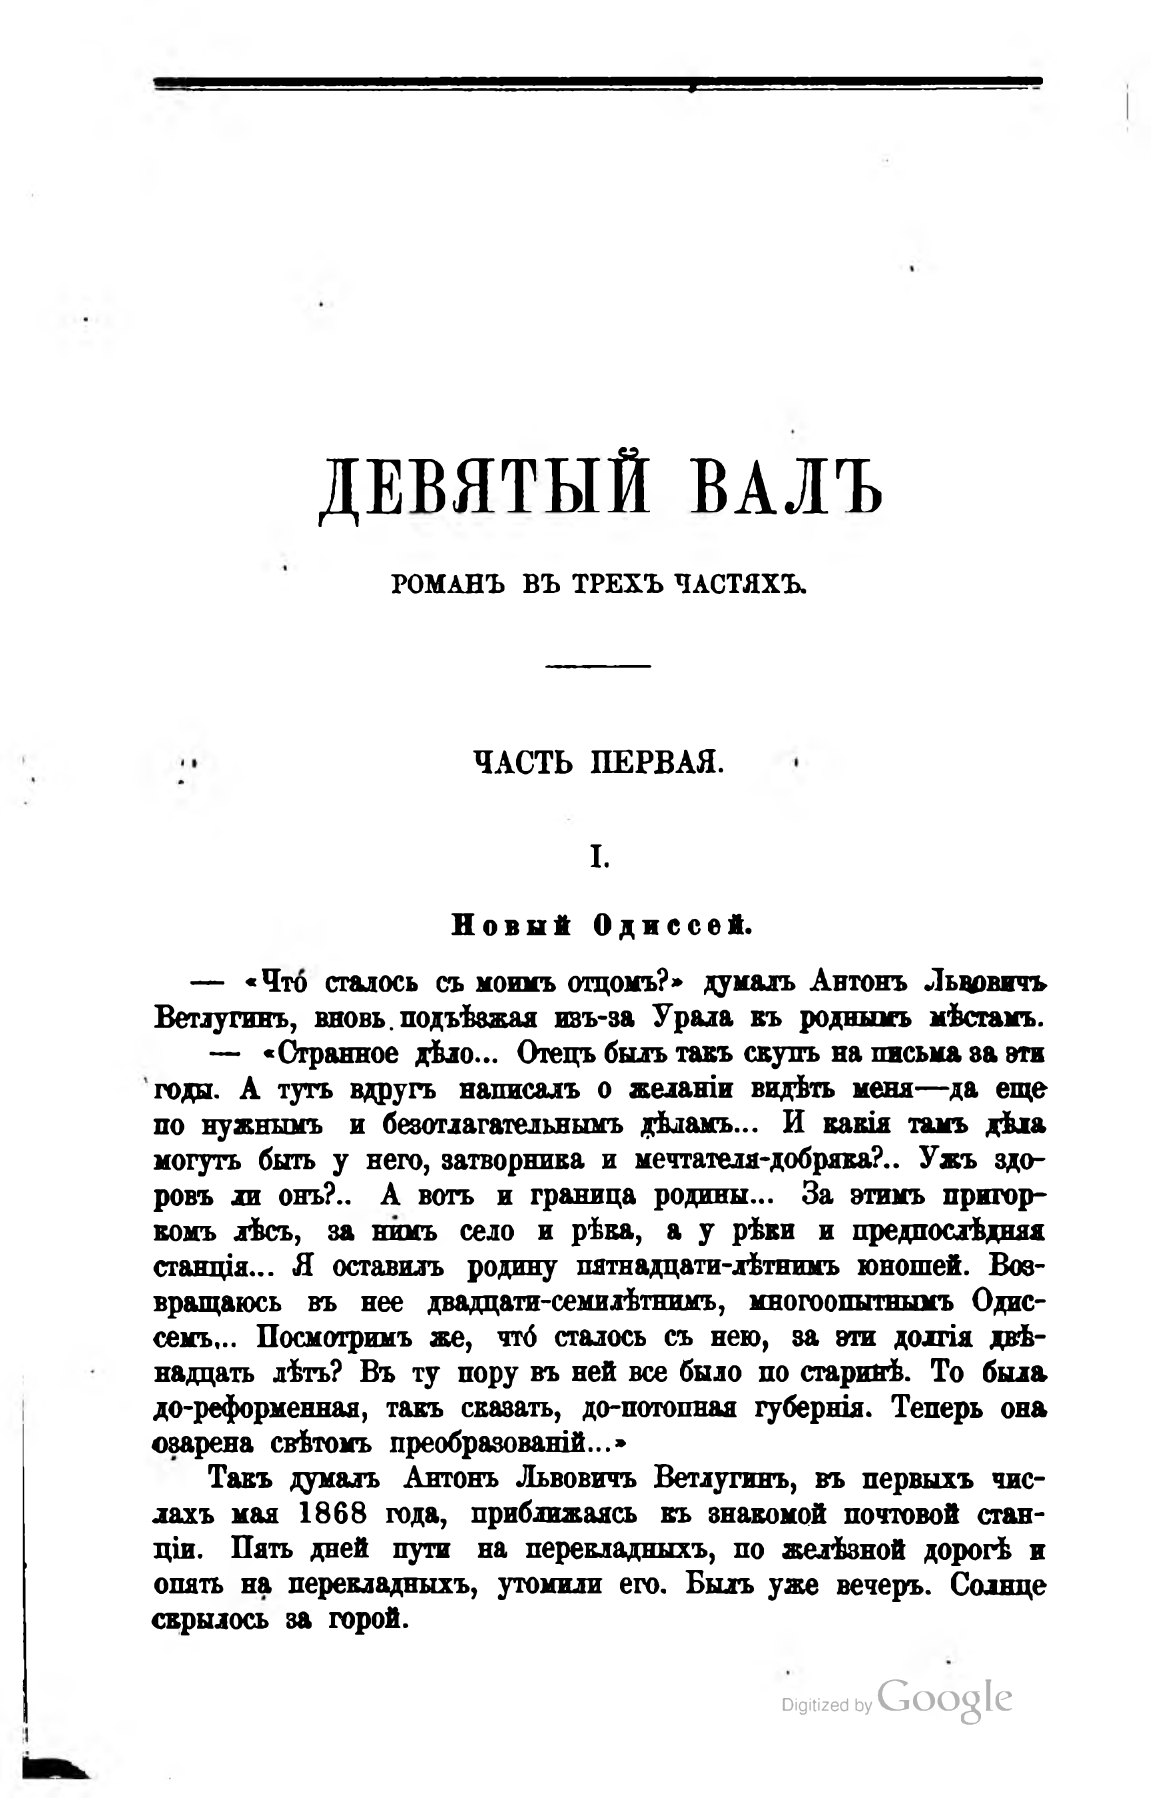ДЕВЯТЫЙ ВАЛЪ
РОМАНЪ ВЪ ТРЕХЪ ЧАСТЯХЪ.
ЧАСТЬ ПЕРВАЯ.
I.
Новый Одиссей.
— «Что сталось съ моимъ отцомъ?» думалъ Антонъ Львовичъ Ветлугинъ, вновь, подъѣзжая изъ-за Урала къ роднымъ мѣстамъ.
— «Странное дѣло... Отецъ былъ такъ скупъ на письма за эти годы. А тутъ вдругъ написалъ о желаніи видѣть меня — да еще по нужнымъ и безотлагательнымъ дѣламъ... И какія тамъ дѣла могутъ быть у него, затворника и мечтателя-добряка?.. Ужъ здоровъ ли онъ?.. А вотъ и граница родины... За этимъ пригоркомъ лѣсъ, за нимъ село и рѣка, а у рѣки и предпослѣдняя станція... Я оставилъ родину пятнадцати-лѣтнимъ юношей. Возвращаюсь въ нее двадцати-семилѣтнимъ, многоопытнымъ Одиссемъ,.. Посмотримъ же, что сталось съ нею, за эти долгія двѣнадцать лѣтъ? Въ ту пору въ ней все было по старинѣ. То была до-реформенная, такъ сказать, до-потопная губернія. Теперь она озарена свѣтомъ преобразованій...»
Такъ думалъ Антонъ Львовичъ Ветлугинъ, въ первыхъ числахъ мая 1868 года, приближаясь къ знакомой почтовой станціи. Пять дней пути на перекладныхъ, по желѣзной дорогѣ и опять на перекладныхъ, утомили его. Былъ уже вечеръ. Солнце скрылось за горой.
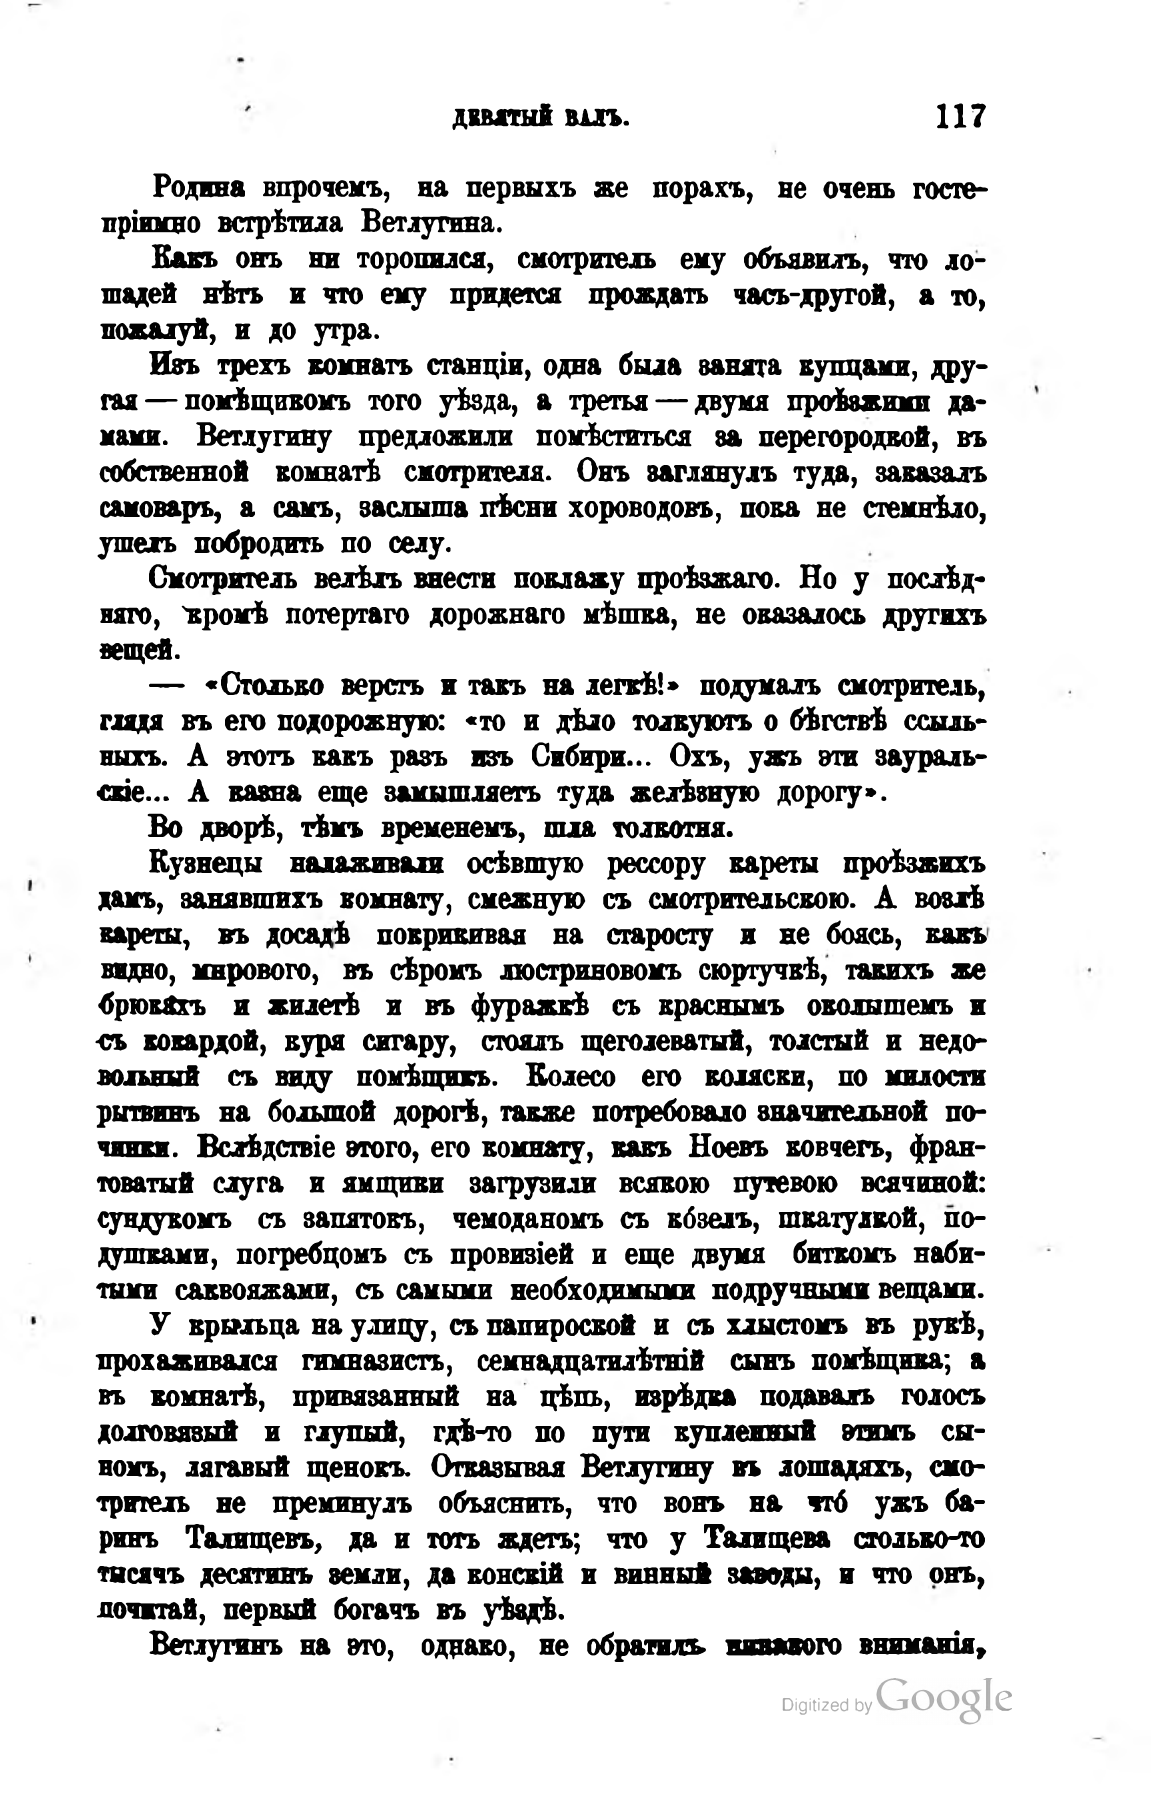ДЕВЯТЫЙ ВАЛЪ.                      117
Родина впрочемъ, на первыхъ же порахъ, не очень гостепріимно встрѣтила Ветлугина.
Какъ онъ ни торопился, смотритель ему объявилъ, что лошадей нѣть и что ему придется прождать часъ-другой, а то, пожалуй, и до утра.
Изъ трехъ комнатъ станціи, одна была занята купцами, другая — помѣщикомъ того уѣзда, а третья — двумя проѣзжими дамами. Ветлугину предложили помѣститься за перегородкой, въ собственной комнатѣ смотрителя. Онъ заглянулъ туда, заказалъ самоваръ, а самъ, заслыша пѣсни хороводовъ, пока не стемнѣло, ушелъ побродить по селу.
Смотритель велѣлъ внести поклажу проѣзжаго. Но у послѣдняго, кромѣ потертаго дорожнаго мѣшка, не оказалось другихъ вещей.
— «Столько верстъ и такъ на легкѣ!» подумалъ смотритель, глядя въ его подорожную: «то и дѣло толкуютъ о бѣгствѣ ссыльныхъ. А этотъ какъ разъ изъ Сибири... Охъ, ужъ эти зауральскіе... А казна еще замышляетъ туда желѣзную дорогу».
Во дворѣ, тѣмъ временемъ, шла толкотня.
Кузнецы налаживали осѣвшую рессору кареты проѣзжихъ дамъ, занявшихъ комнату, смежную съ смотрительскою. А возлѣ кареты, въ досадѣ покрикивая на старосту и не боясь, какъ видно, мирового, въ сѣромъ люстриновомъ сюртучкѣ, такихъ же брюкяхъ и жилетѣ и въ фуражкѣ съ краснымъ околышемъ и съ кокардой, куря сигару, стоялъ щеголеватый, толстый и недовольный съ виду помѣщикъ. Колесо его коляски, по милости рытвинъ на большой дорогѣ, также потребовало значительной починки. Вслѣдствіе этого, его комнату, какъ Ноевъ ковчегъ, франтоватый слуга и ямщики загрузили всякою путевою всячиной: сундукомъ съ запятокъ, чемоданомъ съ козелъ, шкатулкой, подушками, погребцомъ съ провизіей и еще двумя биткомъ набитыми саквояжами, съ самыми необходимыми подручными вещами.
У крыльца на улицу, съ папироской и съ хлыстомъ въ рукѣ, прохаживался гимназистъ, семнадцатилѣтній сынъ помѣщика; а въ комнатѣ, привязанный на цѣпь, изрѣдка подавалъ голосъ долговязый и глупый, гдѣ-то по пути купленный этимъ сыномъ, лягавый щенокъ. Отказывая Ветлугину въ лошадяхъ, смотритель не преминулъ объяснить, что вонъ на что ужъ баринъ Талищевъ, да и тотъ ждетъ; что у Талищева столько-то тысячъ десятинъ земли, да конскій и винный заводы, и что онъ, почитай, первый богачъ въ уѣздѣ.
Ветлугинъ на это, однако, не обратилъ никакого вниманія,
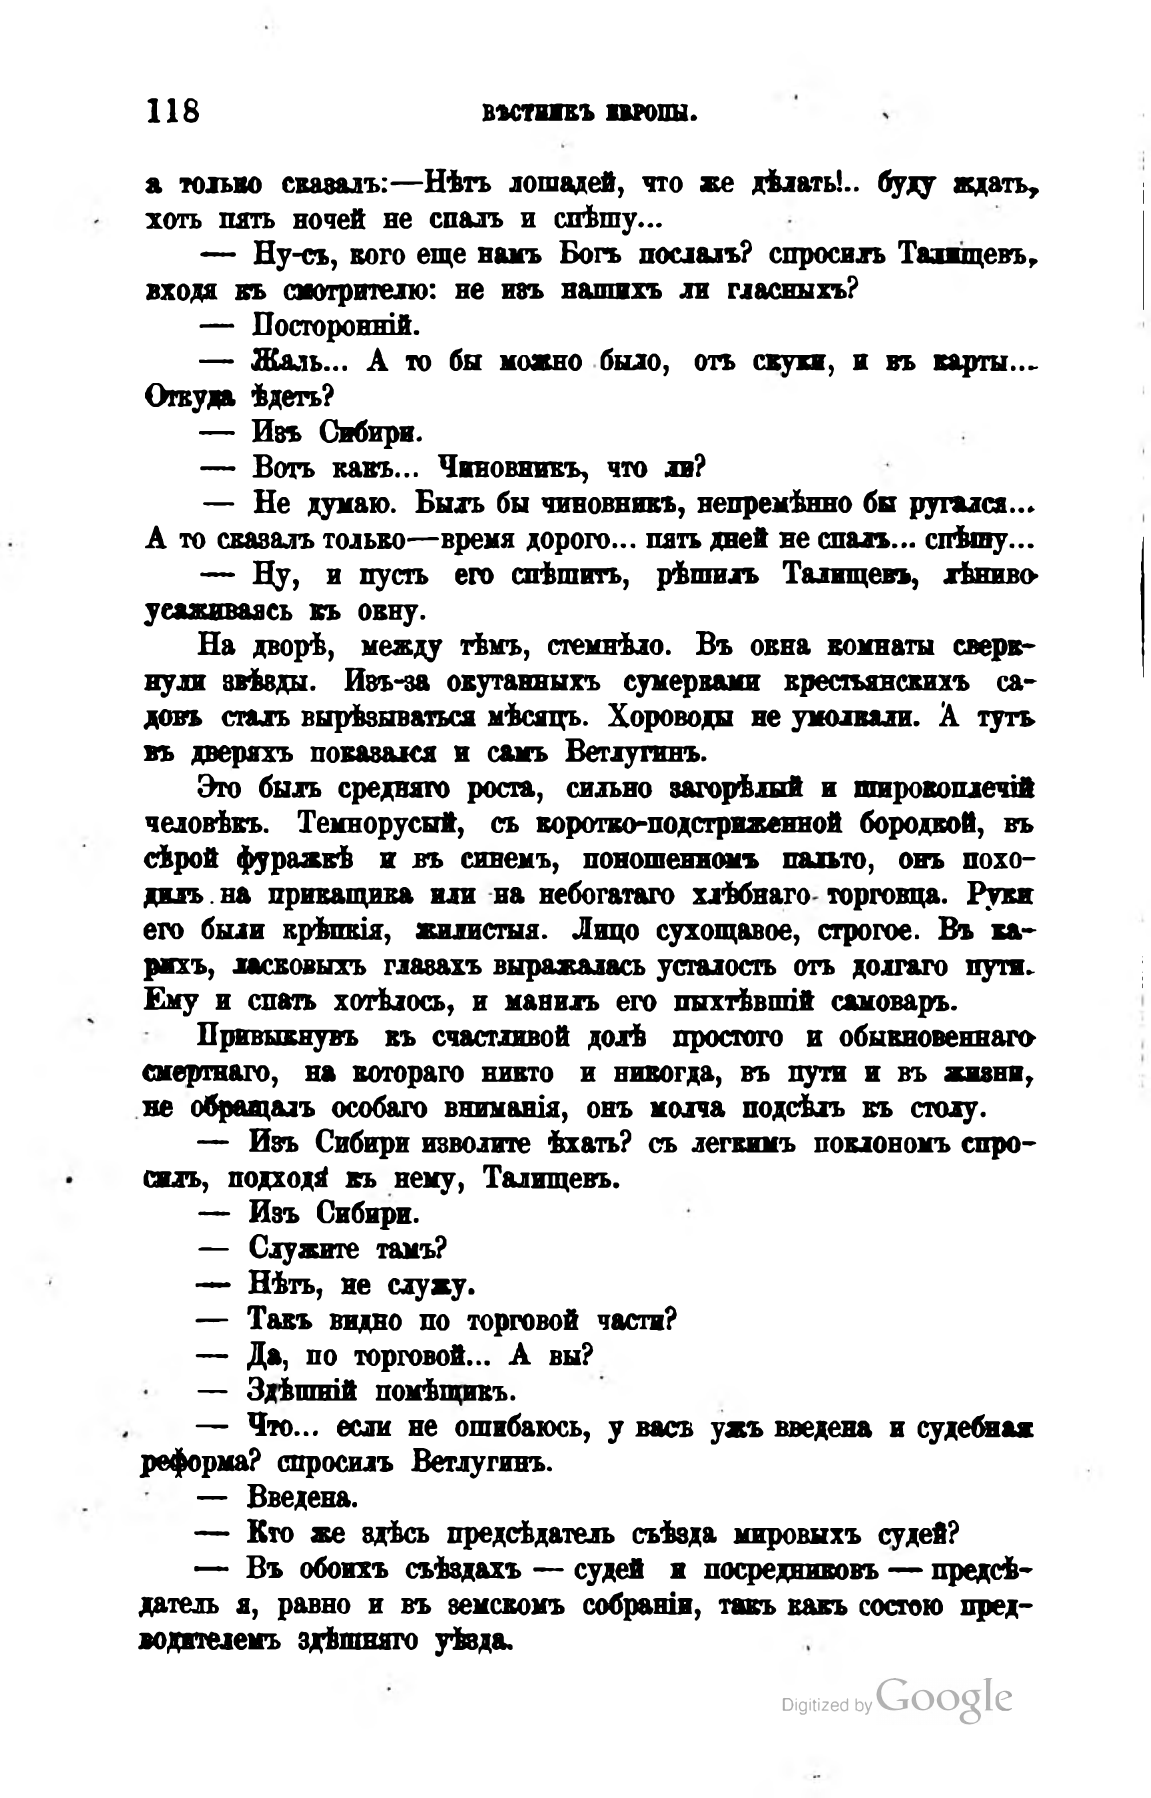118                    ВѢСТНИКЪ ЕВРОПЫ.
а только сказалъ: — Нѣть лошадей, что же дѣлать!.. буду ждать, хоть пять ночей не спалъ и спѣшу...
— Ну-съ, кого еще намъ Богъ послалъ? спросилъ Талищевъ, входя къ смотрителю: не изъ нашихъ ли гласныхъ?
— Посторонній.
— Жаль... А то бы можно было, отъ скуки, и въ карты… Откуда ѣдетъ?
— Изъ Сибири.
— Вотъ какъ... Чиновникъ, что ли?
— Не думаю. Былъ бы чиновникъ, непремѣнно бы ругался… А то сказалъ только — время дорого... пять дней не спалъ... спѣшу...
— Ну, и пусть его спѣшитъ, рѣшилъ Талищевъ, лѣниво усаживаясь къ окну.
На дворѣ, между тѣмъ, стемнѣло. Въ окна комнаты сверкнули звѣзды. Изъ-за окутанныхъ сумерками крестьянскихъ садовъ сталъ вырѣзываться мѣсяцъ. Хороводы не умолкали. А тутъ въ дверяхъ показался и самъ Ветлугинъ.
Это былъ средняго роста, сильно загорѣлый и широкоплечій человѣкъ. Темнорусый, съ коротко-подстриженной бородкой, въ сѣрой фуражкѣ и въ синемъ, поношенномъ пальто, онъ походилъ. на прикащика или на небогатаго хлѣбнаго торговца. Руки его были крѣпкія, жилистыя. Лицо сухощавое, строгое. Въ карихъ, ласковыхъ глазахъ выражалась усталость отъ долгаго пути. Ему и спать хотѣлось, и манилъ его пыхтѣвшій самоваръ.
Привыкнувъ къ счастливой долѣ простого и обыкновеннаго смертнаго, на котораго никто и никогда, въ пути и въ жизни, не обращалъ особаго вниманія, онъ молча подсѣлъ къ столу.
— Изъ Сибири изволите ѣхать? съ легкимъ поклономъ спросилъ, подходя къ нему, Талищевъ.
— Изъ Сибири.
— Служите тамъ?
— Нѣтъ, не служу.
— Такъ видно по торговой части?
— Да, по торговой... А вы?
— Здѣшній помѣщикъ.
— Что... если не ошибаюсь, у васъ ужъ введена и судебная реформа? спросилъ Ветлугинъ.
— Введена.
— Кто же здѣсь предсѣдатель съѣзда мировыхъ судей?
— Въ обоихъ съѣздахъ — судей и посредниковъ — предсѣдатель я, равно и въ земскомъ собраніи, такъ какъ состою предводителемъ здѣшняго уѣзда.